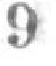9
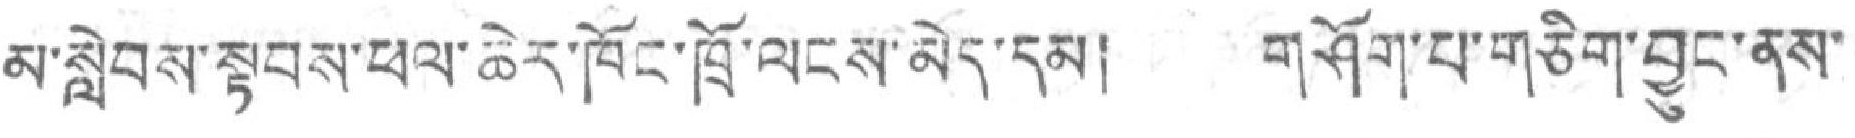མ་སླེབས་སྟབས་ཕལ་ཆེར་ཁོང་ཁྲོ་ལངས་མེད་དམ། གཤོག་པ་གཅིག་བྱུང་ནས་
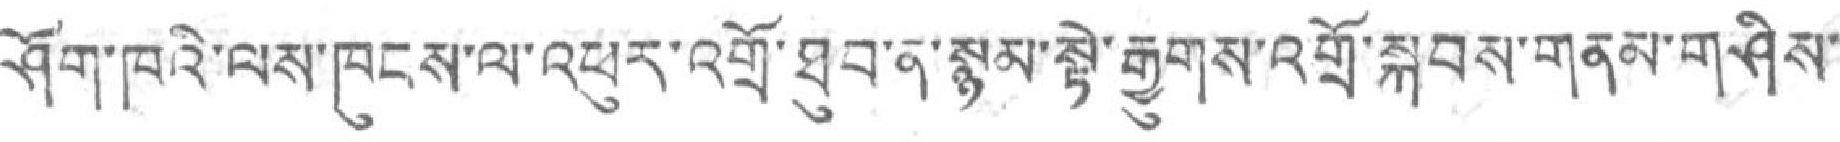ཤོག་ཁའི་ལས་ཁུངས་ལ་འཕུར་འགྲོ་ཐུབ་ན་སྙམ་སྟེ་རྒྱུགས་འགྲོ་སྐབས་གནམ་གཤིས་
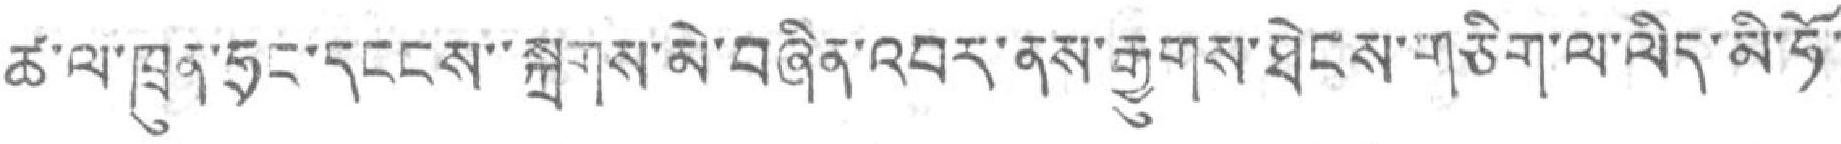ཚ་ལ་ཁྲུན་ཧྲང་དངངས་སྐྲགས་མེ་བཞིན་འབར་ནས་རྒྱུགས་ཐེངས་གཅིག་ལ་ལིད་མི་ཧོ་
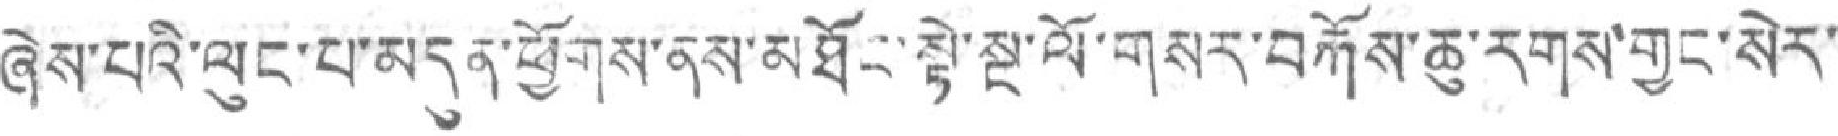ཞེས་པའི་ལུང་པ་མདུན་ཕྱོགས་ནས་མཐོང་སྟེ་སྔ་ལོ་གསར་བརྐོས་ཆུ་རགས་གྱང་སེར་
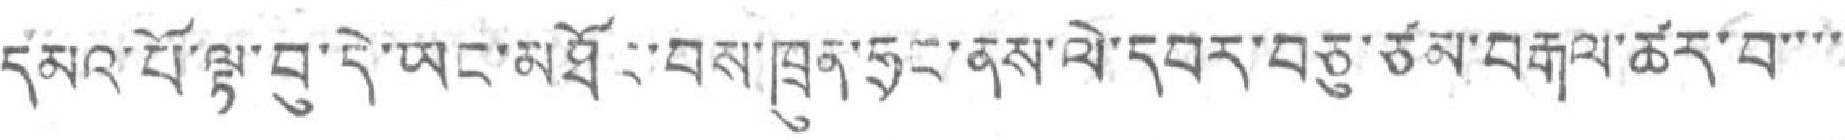དམའ་པོ་ལྟ་བུ་དེ་ཡང་མཐོང་བས་ཁྲུན་ཧྲང་ནས་ལེ་དབར་བཅུ་ཙམ་བརྒལ་ཚར་བ་་་་
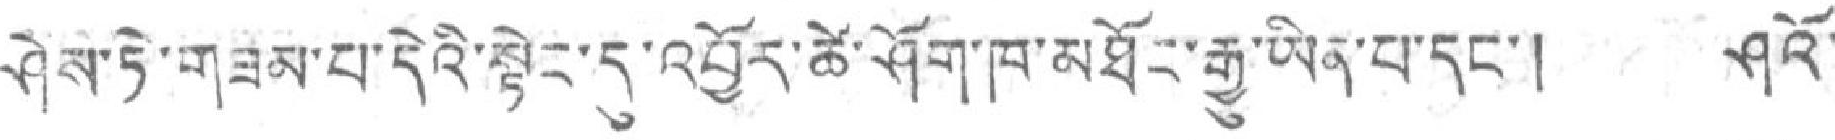ཤེས་ཏེ་གཟམ་པ་དེའི་སྟེང་དུ་འབྱོར་ཚེ་ཤོག་ཁ་མཐོར་རྒྱུ་ཡིན་པ་དང་། ཤའོ་
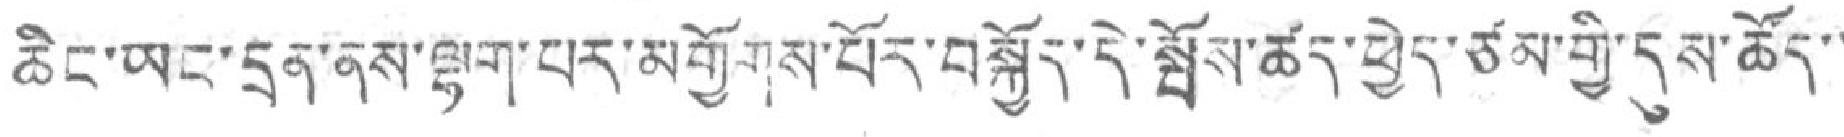ཆིང་ཡང་དྲན་ནས་ལྷག་པར་མགྱོགས་པོར་བསྐྱོར་དེ་སྤོས་ཚད་ཕྱེད་ཙམ་གྱི་དུས་ཚོད་་
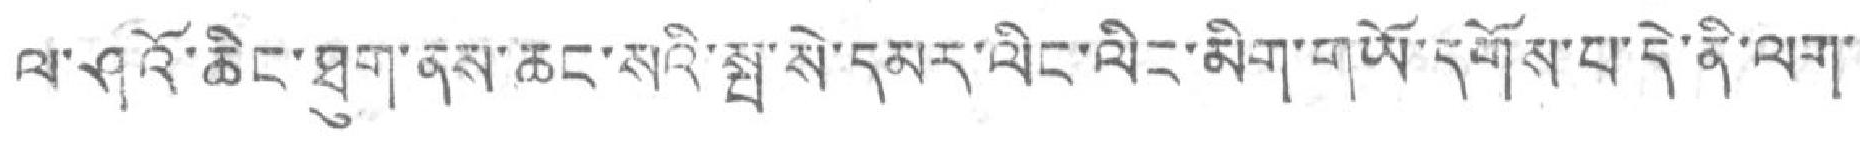ལ་ཤའོ་ཆིང་ཐུག་ནས་ཆང་སའི་སྤ་སེ་དམར་ལིང་ལིར་མིག་གཡོ་དགོས་པ་དེ་ནི་ལག་
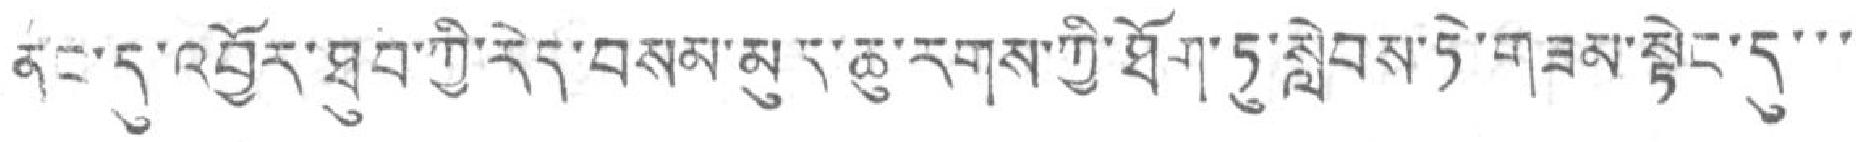ནང་དུ་འབྱོར་ཐུབ་ཀྱི་རེད་བསམ་མུད་ཆུ་རགས་ཀྱི་ཐོག་ཏུ་སླེབས་ཏེ་གཟམ་སྟེང་དུ་་་
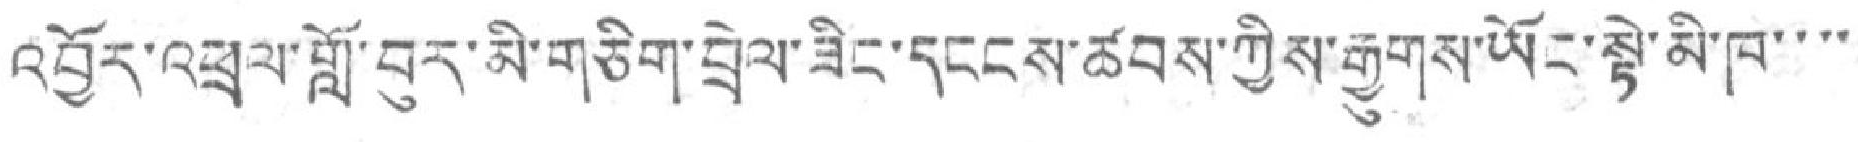འབྱོར་འཕྲལ་གློ་བུར་མི་གཅིག་བྲེལ་ཟིང་དངངས་ཚབས་ཀྱིས་རྒྱུགས་ཡོང་སྟེ་མི་ཁ་་་་
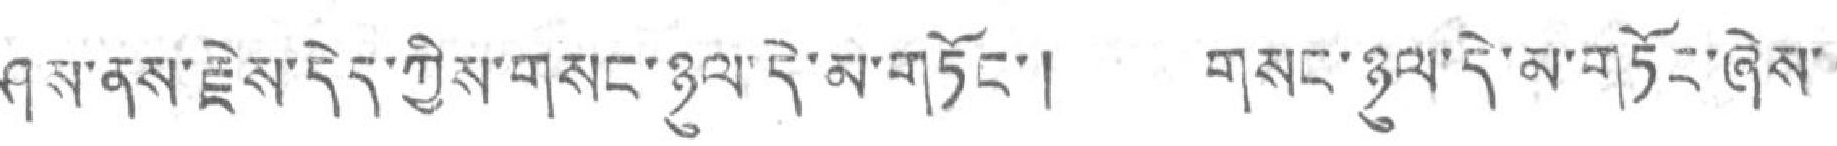ཤས་ནས་རྗེས་དེད་ཀྱིས་གསང་ཉུལ་དེ་མ་གཏོང་། གསང་ཉུལ་དེ་མ་གཏོང་ཞེས་
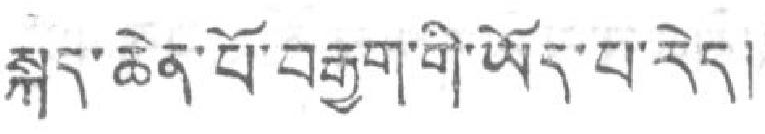སྐད་ཆེན་པོ་བརྒྱག་གི་ཡོད་པ་རེད།
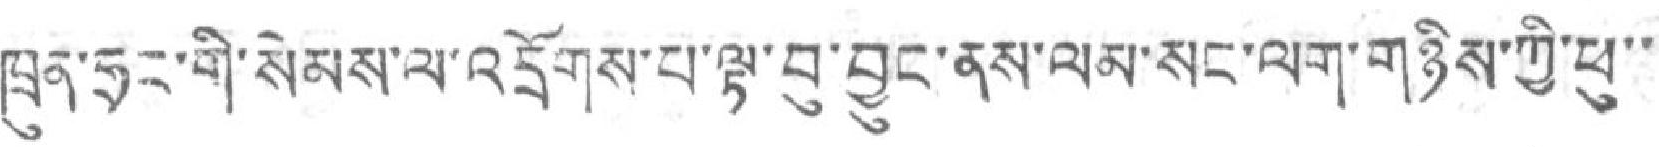ཁྲུན་ཧྲང་གི་སེམས་ལ་འདྲོགས་པ་ལྟ་བུ་བྱུང་ནས་ལམ་སང་ལག་གཉིས་ཀྱི་ཕུ་་
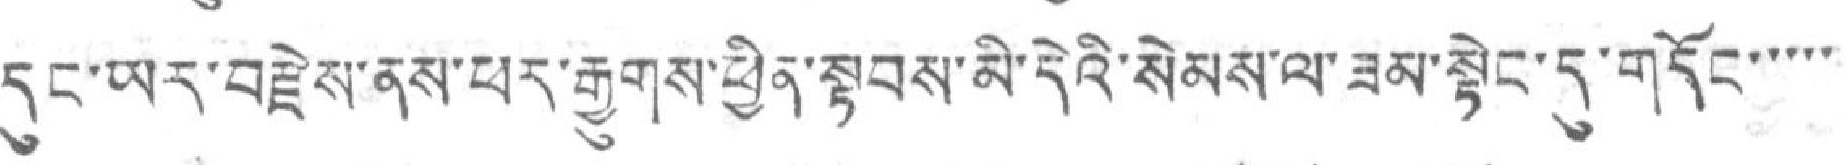དུང་ཡར་བརྗེས་ནས་ཕར་རྒྱུགས་ཕྱིན་སྟབས་མི་དེའི་སེམས་ལ་ཟམ་སྟེང་དུ་གདོང་་་་་
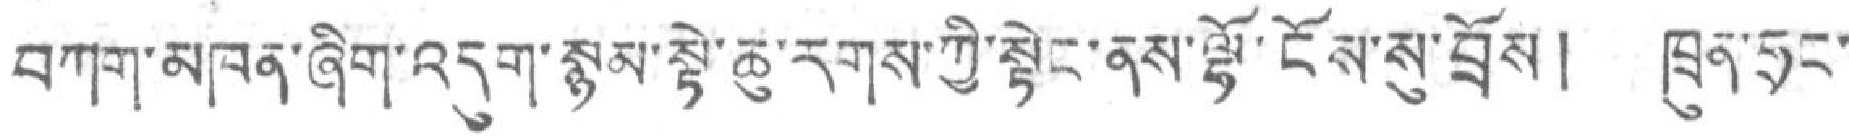བཀག་མཁན་ཞིག་འདུག་སྙམ་སྟེ་ཆུ་རགས་ཀྱི་སྟེང་ནས་ལྷོ་ངོས་སུ་བྲོས། ཁྲུན་ཧྲང་
